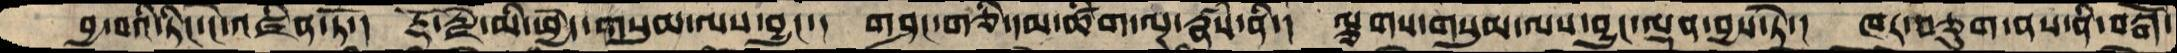བྱ་བའི་ཏིང་ངེ་འཛིན་ཏོ་།  རྡོ་རྗེ་མི་ཕྱེད་གསུམ་ལས་བྱུང་།  གཤང་གཅི་དམ་ཚིག་ལྔ་རྣཾས་ནི་།  ལྕགས་གསུམ་ལས་བྱུང་ལྡན་བྱས་ཏེ་།  ཁར་བཅུག་ནས་ནི་བསྒོ་
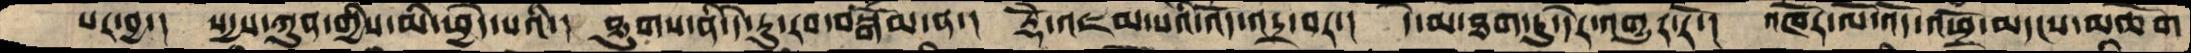པར་བྱ་།  སདྱས་ཀུན་གྱིས་མི་ཕྱེད་པའི་།  ཐུགས་ནི་དེ་རུ་རབ་བསྒོམ་ན་།  རྡོེ་འཇམ་པའི་འོད་འདྲ་བར་།  དེ་མ་ཐག་ཏུ་དེར་འགྱུར་རོ་།  འཁོར་ལོ་འོད་འཕྲོ་མདངས་མཆོག
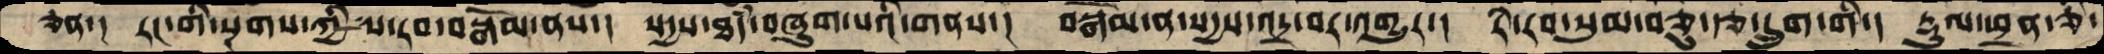ཅན་།  རང་གི་སྔགས་ཀྱིས་རབ་བསྒོམ་ནས་།  སདྱས་ཐཾད་བཞུགས་པའི་གནས་།  བསྒོམ་ན་སདྱས་འདྲ་བར་འགྱུར་།  རི་རབ་སུམ་བཅུ་རྩ་དྲུག་གི་།  རྡུལ་ཕྲན་ཅི་
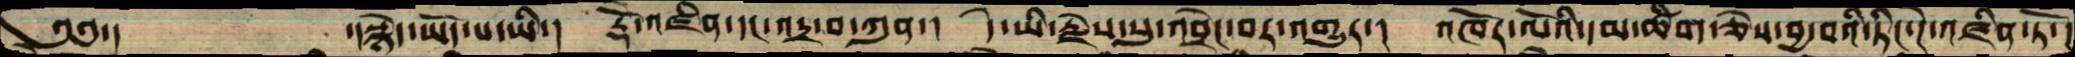༄༅་།     ་།སྙེད་ཡོད་པ་ཡི་།  རྡོ་རྗེ་འཛིན་དང་འདྲ་བ་ཀུན་།  དེ་ཡི་རྗེས་སུ་འབྲེང་བར་འགྱུར་།  འཁོར་ལོའི་དམ་ཚིག་ཅེས་བྱ་བའི་ཏིང་ངེ་འཛིན་ཏོ་།
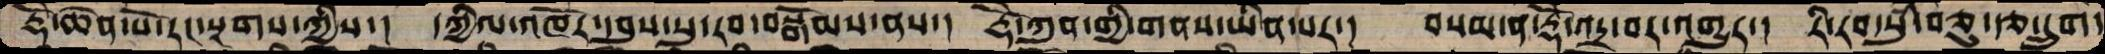རྡོ་ེ་ཆེན་པོ་རང་སྔགས་ཀྱིས་།  དཀྱིལ་འཁོར་དབུས་སུ་རབ་བསྒོམས་ནས་།  རྡོེ་ཀུན་གྱི་གནས་ཡིན་པར་།  བསམ་ན་རྡོེ་འདྲ་བར་འགྱུར་།  རི་རབ་སུཾ་བཅུ་རྩ་དྲུག་
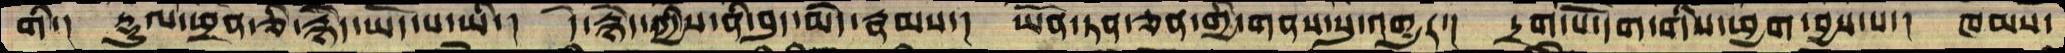གི་།  རྡུལ་ཕྲན་ཅི་རྙེད་ཡོད་པ་ཡི་།  དེ་རྙེད་ཀྱིས་ནི་བུད་མེད་རྣམས་།  ཡོན་ཏན་ཅན་གྱི་གནས་སུ་གྱུར་།  དྲག་པོ་དག་གིས་ཕྱག་བྱས་པ་།  ཁམས་
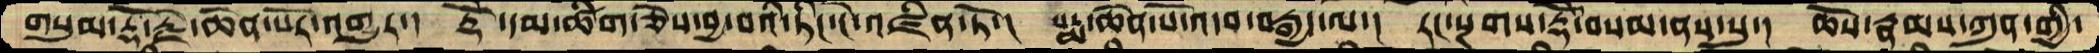གསུམ་རྡོ་རྗེ་ཆེན་པོར་འགྱུར་།  རྡོེ་དམ་ཚིག་ཅེས་བྱ་བའི་ཏིང་ངེ་འཛིན་ཏོ་།  པདྨ་ཆེན་པོ་འདབ་བརྒྱད་ལ་།  རང་སྔགས་རྡོེ་བསམ་ནས་སུ་།  ཆོས་རྣམས་ཀུན་གྱི་
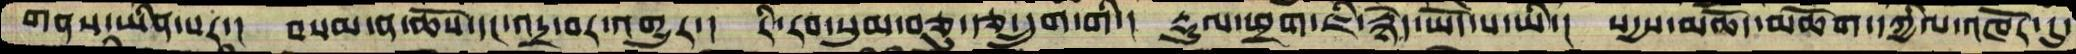གནས་ཡིན་པར་།  བསམ་ན་ཆོས་དང་འདྲ་བར་འགྱུར་།  རི་རབ་སུམ་བཅུ་རྩ་དྲུག་གི་།  རྡུལ་ཕྲག་ཇི་རྙེད་ཡོད་པ་ཡི་།  སདྱས་མཆོད་མཆོག་དཀྱིལ་འཁོར་དུ་
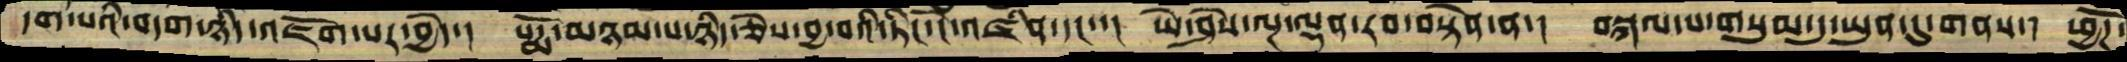དག་པའི་བདག་ཉིད་འཇོམ་པར་བྱེད་།  པདྨོ་མཉམ་པ་ཉིད་ཅེས་བྱ་བའི་ཏིང་ངེ་འཛིན་དང་་།  ཡེ་ཤེས་ལྔ་ལྡན་རབ་བསྟེན་ན་།  བསྐལ་པ་གསུམ་དུ་ཡུན་དུ་གནས་།  ཕྱོཌ་
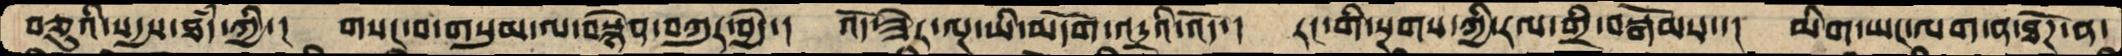བཅུའི་སདྱས་ཐཾད་ཀྱི་།  གསང་བ་གསུམ་ལ་བསྙེན་བཀུར་བྱེད་།  འོད་ཟེར་ལྔ་ཡི་མདོག་འདྲའི་འོད་།  རང་གི་སྔགས་ཀྱི་རལ་གྲི་བསྒོམས་།  མིག་ཡང་ལག་ན་ཐོཌ་ན་
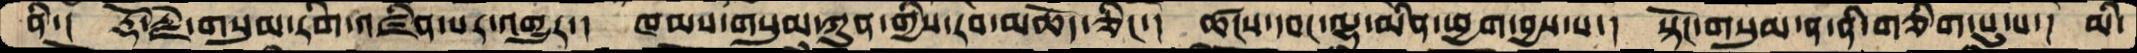ནི་།  རྡོ་རྗེ་གསུམ་རིག་འཛིན་པར་འགྱུར་།  ཁམས་གསུམ་ཀུན་གྱིས་རབ་མཆོད་ཅིང་།  ཚངས་དབང་ལྷ་མིན་ཕྱག་བྱས་པ་།  སྟོང་གསུམ་ན་ནི་གཅིག་པུ་པ་།  མི་
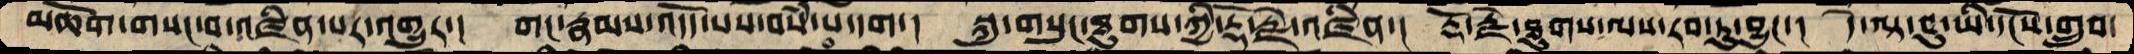མཆོག་གསང་བ་འཛིན་པར་འགྱུར་།  གང་རྣམས་འདོད་པས་བསཾ་པ་དག་།  སྐུ་གསུང་ཐུགས་ཀྱི་རྡོ་རྗེ་འཛིན་།  རྡོ་རྗེ་ཐུགས་ལས་རབ་ཏུ་བྱུང་།། དེ་ལྟ་བུ་ཡི་དངོས་གྲུབ་
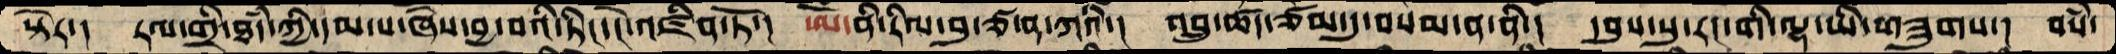སྟེར་།   རལ་གྲི་ཐཾད་ཀྱི་དམ་པ་ཞེས་བྱ་བའི་ཏིང་ངེ་འཛིན་ཏོ་།  ཨོཾ་ནི་རིལ་བུ་ཙ་ན་ཀའི་།  འབྲུ་ཚད་ཙམ་དུ་བསམ་ན་ནི་།   དབུས་སུ་རང་གི་ལྷ་ཡི་གཟུགས་།  བསཾ་
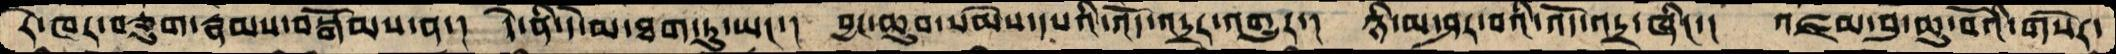རེ་ཁར་བཅུག་རྣམས་བསྒོམས་ན་།  དེ་ནི་དེ་མ་ཐག་ཏུ་ཡང་།  བྱང་ཆུབ་སེམས་དཔའི་འོད་འདྲར་འགྱུར་།  ཉི་མ་ཤར་བའི་འོད་འདྲ་ཞིང་།  འཛམ་བུ་ཆུ་བོའི་གསེར་
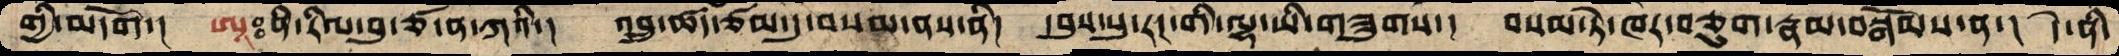གྱི་མདོག་།  ཨཱཿ་ནི་རིལ་བུ་ཙ་ན་ཀའི་།  འབྲུ་ཚད་ཙམ་དུ་བསམ་ནས་ནི་།  དབུས་སུ་རང་གི་ལྷ་ཡི་གཟུགས་།  བསམ་ཏེ་ཁར་བཅུག་རྣམ་བསྒོམས་ན་།  དེ་ནི་
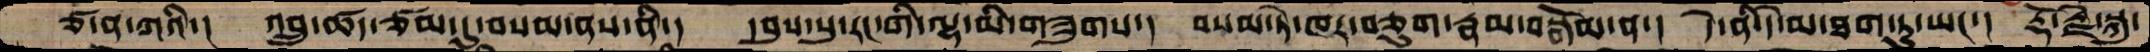ཙ་ན་ཀའི་།  འབྲུ་ཚད་ཙམ་དུ་བསམ་ནས་ནི་།  དབུས་སུ་རང་གི་ལྷ་མི་གཟུགས་།  བསམ་ཏེ་ཁར་བཅུག་རྣམ་བསྒོམ་ན་།  དེ་ནི་དེ་མ་ཐག་ཏུ་ཡང་།  རྡོ་རྗེ་སྐུ་
